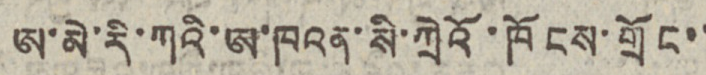ཨ་མེ་རི་ཀའི་ཨ་ཁའན་སི་ཀྲེའོ་ཁོངས་གྲོང་་
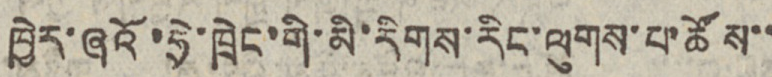ཁྱེར་ཞའོ་ཧྲེ་ཁྲེང་གི་མི་རིགས་རིང་ལུགས་པ་ཚོས་་
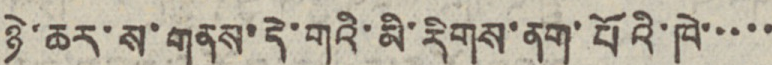ཉེ་ཆར་ས་གནས་དེ་གའི་མི་རིགས་ནག་པོའི་ཁེ་་་་་
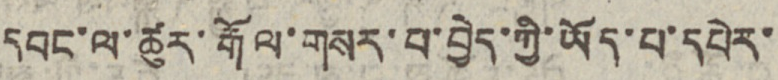དབང་ལ་ཚུར་རྒོལ་གསར་པ་བྱེད་ཀྱི་ཡོད་པ་དཔེར་
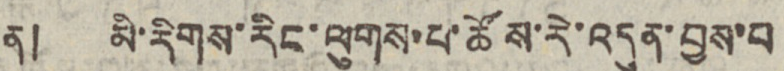ན། མི་རིགས་རིང་ལུགས་པ་ཚོས་རེ་འདུན་བྱས་པ
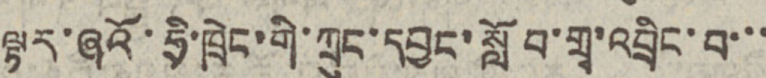ལྟར་ཞའོ་ཧྲི་ཁྲེང་གི་ཀྲུང་དབྱང་སློབ་གྲྭ་འབྲིང་བ་་་
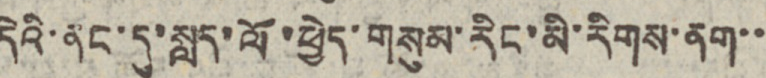དེའི་ནང་དུ་སླད་ལོ་ཕྱེད་གསུམ་རིང་མི་རིགས་ནག་་
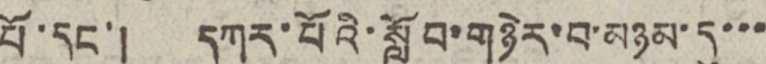པོ་དང་། དཀར་པོའི་སློབ་གཉེར་བ་མཉམ་དུ་་་
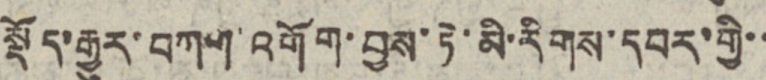སྡོད་རྒྱུར་བཀག་འགོག་བྱས་ཏེ་མི་རིགས་དབར་གྱི་་
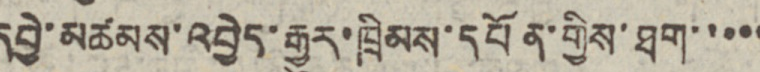དབྱེ་མཚམས་འབྱེད་རྒྱུར་ཁྲིམས་དབོན་གྱིས་ཐག་་་་་
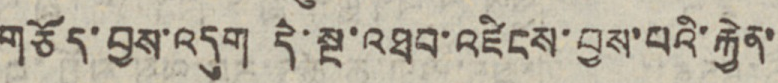གཙོད་བྱས་འདུག དེ་སྔ་འཐབ་འཛིངས་བྱས་པའི་རྐྱེན་
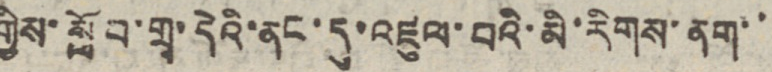གྱིས་སློབ་གྲྭ་དེའི་ནང་དུ་འཛུལ་བའི་མི་རིགས་ནག་་
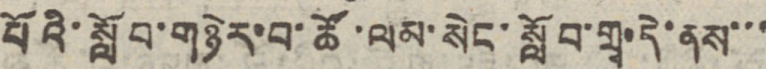པོའི་སློབ་གཉེར་བ་ཚོ་ལམ་སེང་སློབ་གྲྭ་དེ་ནས་་་
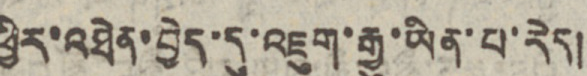ཕྱིར་འཐེན་བྱེད་དུ་འཇུག་རྒྱུ་ཡིན་པ་རེད།
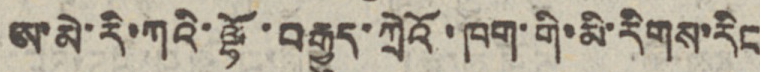ཨ་མེ་རི་ཀའི་ལྷོ་བརྒྱུད་ཀྲེའོ་ཁག་གི་མི་རིགས་རིང
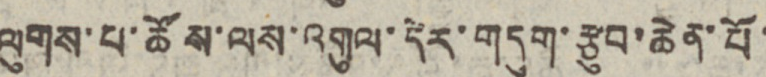ལུགས་པ་ཚོས་ལས་འགུལ་དེར་གདུག་རྩུབ་ཆེན་པོ་
